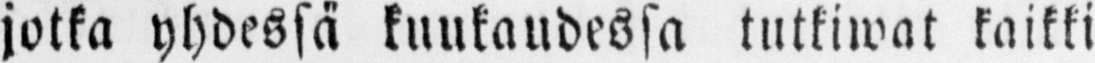jotka yhdessä kuukaudessa tutkiwat kaikki
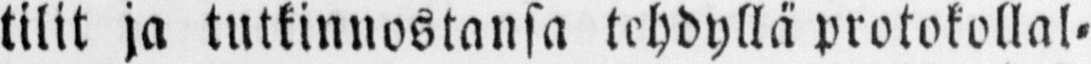tilit ja tutkinnostansa tehdyllä protokollal-
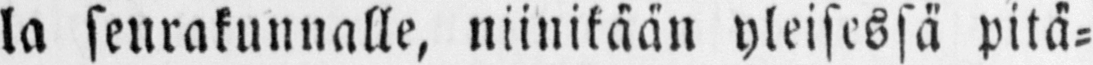la seurakunnalle, niinikään yleisessä pitä-
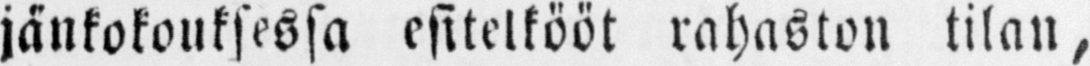jänkokouksessa esitelkööt rahaston tilan,
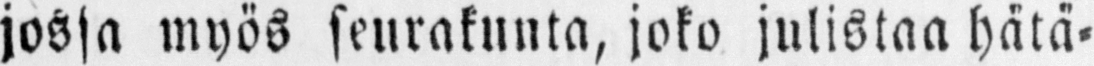jossa myös seurakunta, joko julistaa hätä-
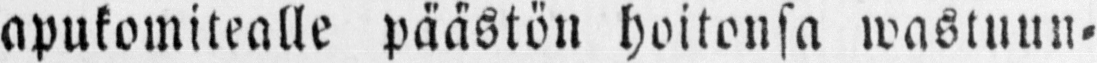apukomitealle päästön hoitonsa wastuun-
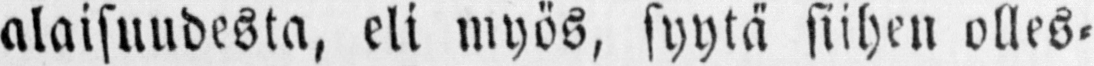alaisuudesta, eli myös, syytä siihen olles-
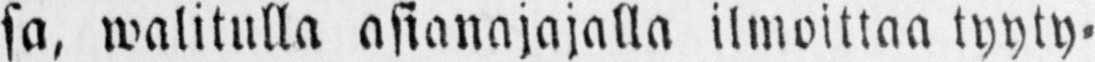sa, walitulla asianajajalla ilmoittaa tyyty-
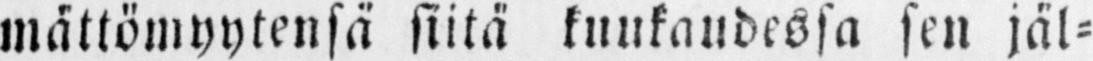mättömyytensä siitä kuukaudessa sen jäl-
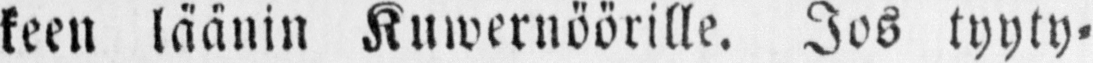keen läänin Kuwernöörille. Jos tyyty-
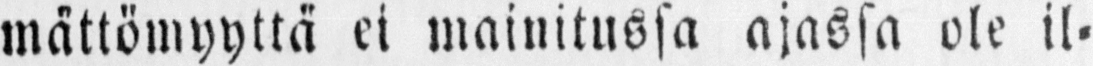mättömyyttä ei mainitussa ajassa ole il-
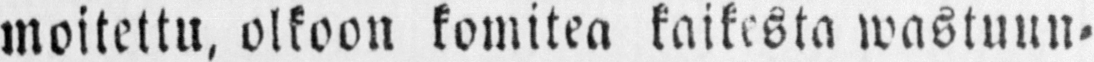moitettu. olkoon komitea kaikesta wastuun-
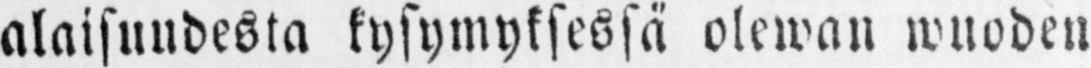alaisuudesta kysymyksesjä olewan wuoden
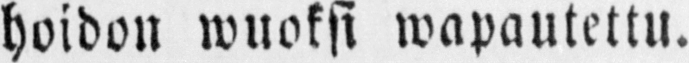hoidon wuoksi wapautettu.
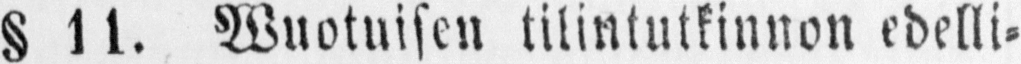§ 11. Wuotuisen tilintutkinnon edelli-
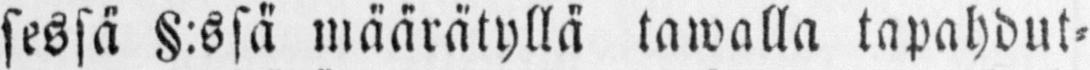sessä §:ssä määrätyllä tawalla tapahdut-
